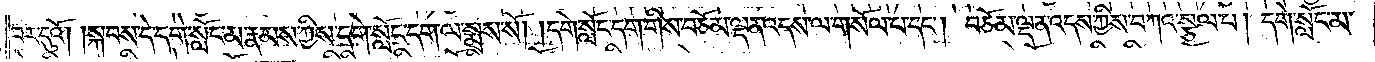བར་དུའོ། །སྐབས་དེ་དགེ་སློང་མ་རྣམས་ཀྱིས་དགེ་སློང་དག་ལ་སྨྲས་སོ། །དགེ་སློང་དག་གིས་བཅོམ་ལྡན་འདས་ལ་གསོལ་པ་དང༌། བཅོམ་ལྡན་འདས་ཀྱིས་བཀའ་སྩལ་པ། དགེ་སློང་མ་
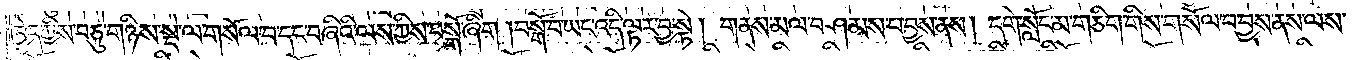ཁྱེད་ཀྱིས་བཅུ་གཉིས་སྡེ་ལ་གསོལ་བ་དང་བཞིའི་ལས་ཀྱིས་བསྒོ་ཞིག །བསྒོ་བ་ཡང་འདི་ལྟར་བྱ་སྟེ། གནས་མལ་བཤམས་པ་བྱས་ནས། དགེ་སློང་མ་གཅིག་གིས་གསོལ་བ་བྱས་ནས་ལས་
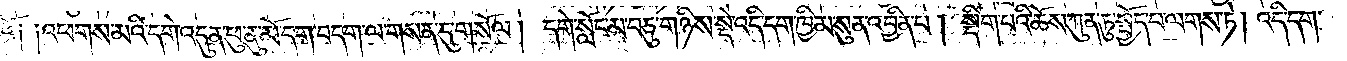བྱའོ༑ ༑འཕགས་མའི་དགེ་འདུན་ཕུ་ནུ་མོ་དག་བདག་ལ་གསན་དུ་གསོལ། དགེ་སློང་མ་བཅུ་གཉིས་སྡེ་འདི་དག་ཁྱིམ་སུན་འབྱིན་པ། སྡིག་པའི་ཆོས་ཀུན་ཏུ་སྤྱོད་པ་ལགས་ཏེ། འདི་དག་
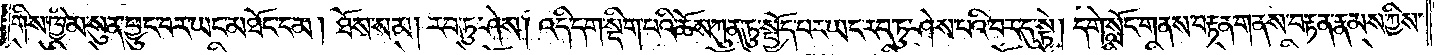གིས་ཁྱིམ་སུན་ཕྱུང་བར་ཡང་མཐོང་ངམ། ཐོས་སམ། རབ་ཏུ་ཤེས། འདི་དག་སྡིག་པའི་ཆོས་ཀུན་ཏུ་སྤྱོད་པར་ཡང་རབ་ཏུ་ཤེས་པའི་བར་དུ་སྟེ། དགེ་སློང་གནས་བརྟན་གནས་བརྟན་རྣམས་ཀྱིས་
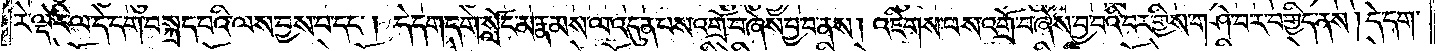རེ་ལྡེ་རི་ལ་དེ་དག་བསྐྲད་པའི་ལས་བྱས་པ་དང༌། དེ་དག་དགེ་སློང་མ་རྣམས་ལ་འདུན་པས་འགྲོ་བ་ཞེས་བྱ་བ་ནས། འཇིགས་པས་འགྲོ་བ་ཞེས་བྱ་བའི་བར་གྱིས་གཤེ་བར་བགྱིད་ནས། དེ་དག་
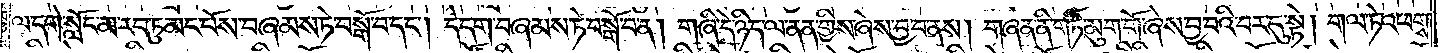ལ་དགེ་སློང་མ་རབ་ཏུ་མང་པོས་བཞམས་ཏེ་བསྒོ་བ་དང༌། དེ་དག་བཞམས་ཏེ་བསྒོ་བ་ན། གཞི་དེ་ཉིད་ལ་ནན་གྱིས་ཞེས་བྱ་བ་ནས། གཞན་ནི་གཏི་མུག་གོ་ཞེས་བྱ་བའི་བར་དུ་སྟེ། གལ་ཏེ་འཕགས་
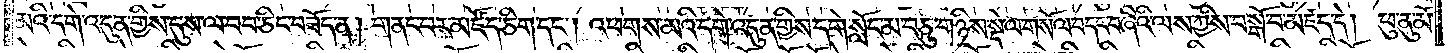མའི་དགེ་འདུན་གྱིས་དུས་ལ་བབ་ཅིང་བཟོད་ན། གནང་བར་མཛོད་ཅིག་དང༌། འཕགས་མའི་དགེ་འདུན་གྱིས་དགེ་སློང་མ་བཅུ་གཉིས་སྡེ་ལ་གསོལ་བ་དང་བཞིའི་ལས་ཀྱིས་བསྒོ་བ་མཛད་དེ། ཕུ་ནུ་མོ་
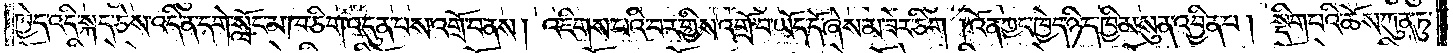ཁྱེད་འདི་སྐད་ཅེས་འདི་ན་དགེ་སློང་མ་ཁ་ཅིག་འདུན་པས་འགྲོ་བ་ནས། འཇིགས་པའི་བར་གྱིས་འགྲོ་བ་ཡོད་དོ་ཞེས་མ་ཟེར་ཅིག །འོན་ཀྱང་ཁྱེད་ཉིད་ཁྱིམ་སུན་འབྱིན་པ། སྡིག་པའི་ཆོས་ཀུན་ཏུ་
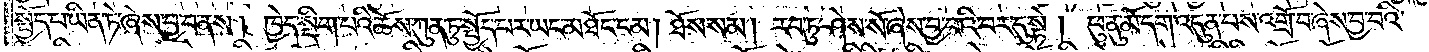སྤྱོད་པ་ཡིན་ཏེ་ཞེས་བྱ་བ་ནས། ཁྱེད་སྡིག་པའི་ཆོས་ཀུན་ཏུ་སྤྱོད་པར་ཡང་མཐོང་ངམ། ཐོས་སམ། རབ་ཏུ་ཤེས་སོ་ཞེས་བྱ་བའི་བར་དུ་སྟེ། ཕུ་ནུ་མོ་དགེ་འདུན་པས་འགྲོ་བ་ཞེས་བྱ་བའི་
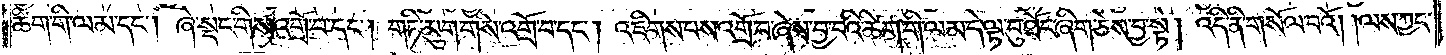ཚིག་གི་ལམ་དང༌། ཞེ་སྡང་གིས་འགྲོ་བ་དང༌། གཏི་མུག་གིས་འགྲོ་བ་དང༌། འཇིགས་པས་འགྲོ་བ་ཞེས་བྱ་བའི་ཚིག་གི་ལམ་དེ་ལྟ་བུ་ཐོང་ཞིག་ཅེས་བྱ་སྟེ། འདི་ནི་གསོལ་བའོ། །ལས་ཀྱང་
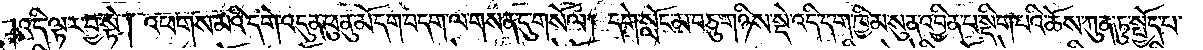འདི་ལྟར་བྱ་སྟེ། འཕགས་མའི་དགེ་འདུན་ཕུ་ནུ་མོ་དག་བདག་ལ་གསན་དུ་གསོལ། དགེ་སློང་མ་བཅུ་གཉིས་སྡེ་འདི་དག་ཁྱིམ་སུན་འབྱིན་པ་སྡིག་པའི་ཆོས་ཀུན་ཏུ་སྤྱོད་པ་
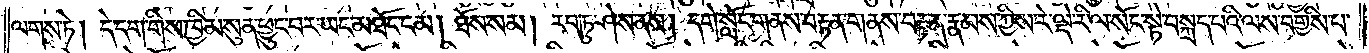ལགས་ཏེ། དེ་དག་གིས་ཁྱིམ་སུན་ཕྱུང་བར་ཡང་མཐོང་ངམ། ཐོས་སམ། རབ་ཏུ་ཤེས་ནས། དགེ་སློང་གནས་བརྟན་གནས་བརྟན་རྣམས་ཀྱིས་རེ་ལྡེ་རི་ལ་སོང་སྟེ་བསྐྲད་པའི་ལས་བགྱིས་པ་
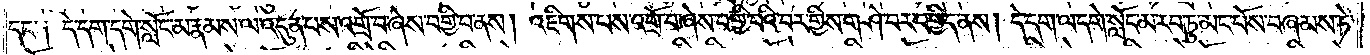དང་༑ དེ་དག་དགེ་སློང་མ་རྣམས་ལ་འདུན་པས་འགྲོ་བ་ཞེས་བགྱི་བ་ནས། འཇིགས་པས་འགྲོ་བ་ཞེས་བགྱི་བའི་བར་གྱིས་གཤེ་བར་བགྱིད་ནས། དེ་དག་ལ་དགེ་སློང་མ་རབ་ཏུ་མང་པོས་བཞམས་ཏེ་
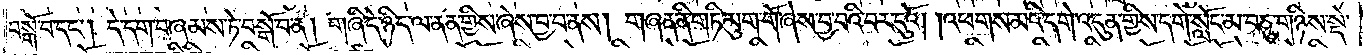བསྒོ་བ་དང༌། དེ་དག་བཞམས་ཏེ་བསྒོ་བ་ན། གཞི་དེ་ཉིད་ལ་ནན་གྱིས་ཞེས་བྱ་བ་ནས། གཞན་ནི་གཏི་མུག་གོ་ཞེས་བྱ་བའི་བར་དུའོ། །འཕགས་མའི་དགེ་འདུན་གྱིས་དགེ་སློང་མ་བཅུ་གཉིས་སྡེ་
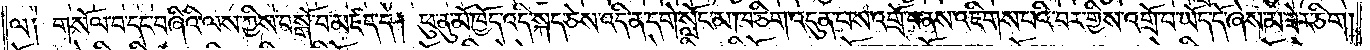ལ༑ གསོལ་བ་དང་བཞིའི་ལས་ཀྱིས་བསྒོ་བ་མཛད་དེ། ཕུ་ནུ་མོ་ཁྱོད་འདི་སྐད་ཅེས་འདི་ན་དགེ་སློང་མ་ཁ་ཅིག་འདུན་པས་འགྲོ་བ་ནས་འཇིགས་པའི་བར་གྱིས་འགྲོ་བ་ཡོད་དོ་ཞེས་མ་ཟེར་ཅིག །
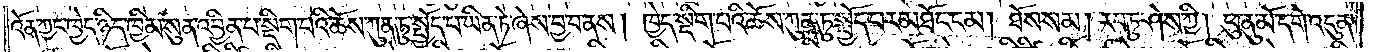འོན་ཀྱང་ཁྱེད་ཉིད་ཁྱིམ་སུན་འབྱིན་པ་སྡིག་པའི་ཆོས་ཀུན་ཏུ་སྤྱོད་པ་ཡིན་ཏེ་ཞེས་བྱ་བ་ནས། ཁྱེད་སྡིག་པའི་ཆོས་ཀུན་ཏུ་སྤྱོད་པར་མཐོང་ངམ། ཐོས་སམ། རབ་ཏུ་ཤེས་ཀྱི། ཕུ་ནུ་མོ་དགེ་འདུན་
